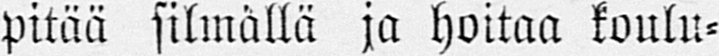pitää silmällä ja hoitaa koulu-
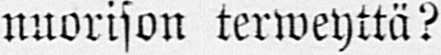nuorison terweyttä?
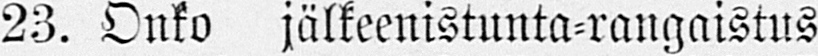23. Onko jälkeenistunta-rangaistus
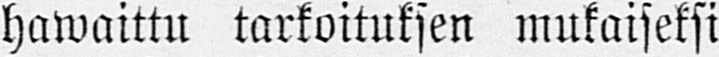hawaittu tarkoituksen mukaiseksi
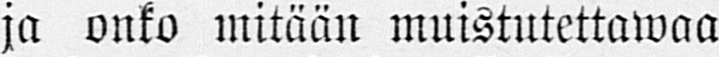ja onko mitään muistutettawaa
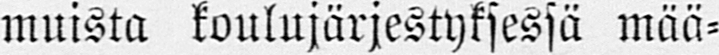muista koulujärjestyksessä mää-
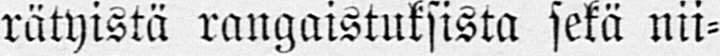rätyistä rangaistuksista sekä nii-
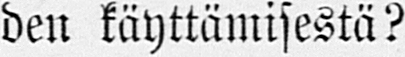den käyttämisestä?
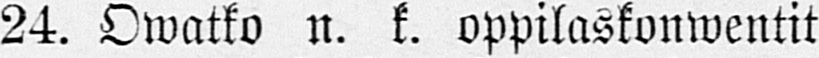24. Owatko n. k. oppilaskonwentit
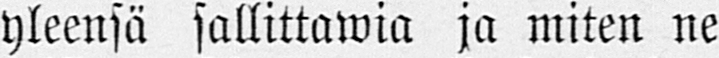yleensä sallittawia ja miten ne
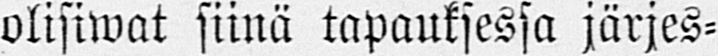olisiwat siinä tapauksessa järjes-
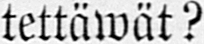tettäwät?
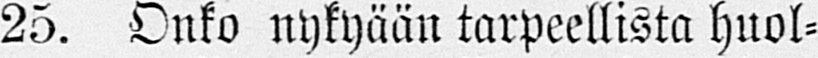25. Onko nykyään tarpeellista huol-
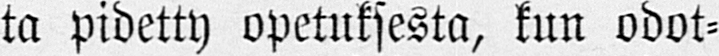ta pidetty opetuksesta, kun odot-
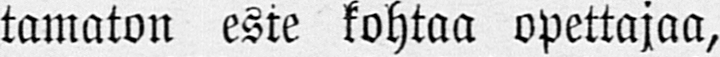tamaton este kohtaa opettajaa,
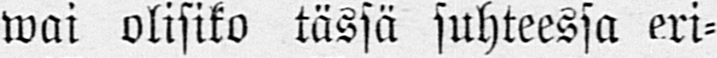wai olisiko tässä suhteessa eri-
